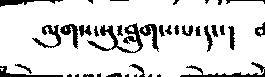ལུགས་སུ་བླུག་པ་དང་།
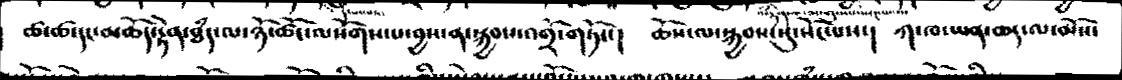ཚ་ཚ་དང་མཆོད་རྟེན་ཐཾད་ལ་ཉོ་ཚོང་ལསོགས་པ་བྱས་ན་སྐྱབས་འགྲོ་གཏོང་།  ཆོ་སལ་སྐྱབས་སུ་སོང་པས་།  ཀ་ཁ་ཡན་ཆད་ལ་མོས་
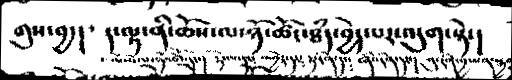གུས་བྱ་།  ད་ལྟ་ནི་ཆོས་ལ་ཉོ་ཚོང་ཐཾད་བྱེད་པར་འདུག་སྟེ་།
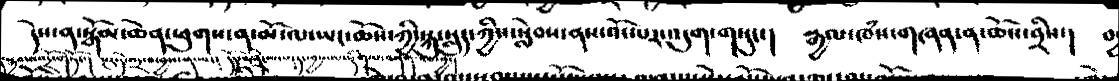དེས་ན་སྒོམ་ཆེན་ཕུགས་ན་མོ་ལ་ཡང་ཆོས་ཀྱི་སྐུ་སླད་ཀྱིས་སླེབས་ནས་འོང་པར་འདུག་གསུང་། རྒྱལ་ཁཾས་གཞན་ན་ཆོས་བྲིས་།
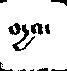བདྱའ་
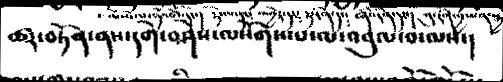ཚར་བཏོན་ནས་དགེ་བཤེས་ལསོགས་པ་ལ་འབུལ་བ་ལས་།
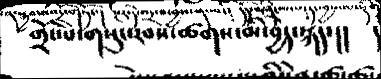གྲོང་པ་གསུང་རབས་ཚགས་མི་བྱེད་སྐད་།།  །
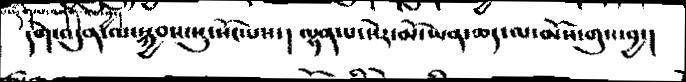དགེ་འདུན་ལ་སྐྱབས་སུ་སོང་པས་།   ལྷག་པ་སེར་མོ་ཡན་ཆད་ལ་མོས་གུས་བྱ་།
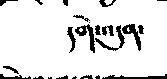དགེ་འདུན་
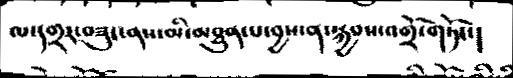ལ་དགྲར་བཟུང་ནས་མི་མཐུན་པ་བྱས་ན་སྐྱབས་འགྲོ་གཏོང་།
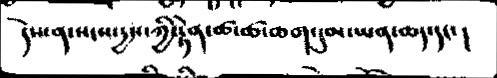དེས་ན་སངས་དྱས་ཀྱི་རྟེན་ཚ་ཚ་ཆག་དུམ་ཡན་ཆད་དང་།
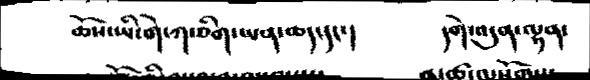ཆོས་ཡི་གེ་ཀ་ཅིག་ཡན་ཆད་དང་།   དགེ་འདུན་ལྷན་
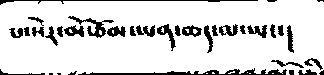པ་སེར་མོ་ཅོམ་ཡན་ཆད་ལ་ཡང་།
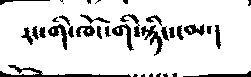རང་གི་ཁོང་གི་སྙིང་ངམ་།
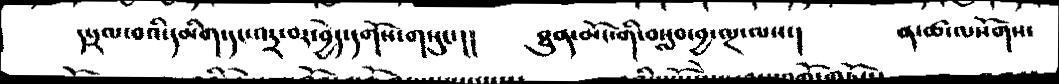ད་དྲལ་བའི་དམིག་དང་འདྲ་བར་བྱེད་དགོས་གསུང་།།  ཐུན་མོང་གི་བསླབ་བྱ་ལྔ་ལས་།  ན་ཚ་ལསོགས་
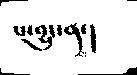པ་བྱུང་ན་།
